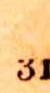31
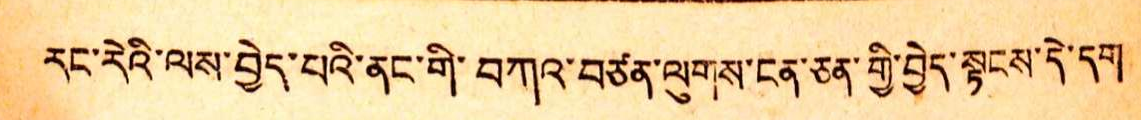རང་རེའི་ལས་བྱེད་པའི་ནང་གི་བཀའ་བཙན་ལུགས་ངན་ཅན་གྱི་བྱེད་སྟངས་དེ་དག
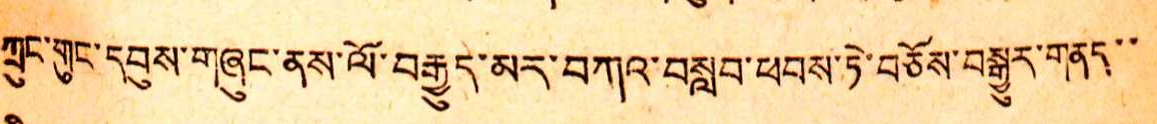ཀྲུང་གུང་དབུས་གཞུང་ནས་ལོ་བརྒྱུད་མར་བཀའ་བསླབ་ཕབས་ཏེ་བཅོས་བསྒྱུར་གནད་་
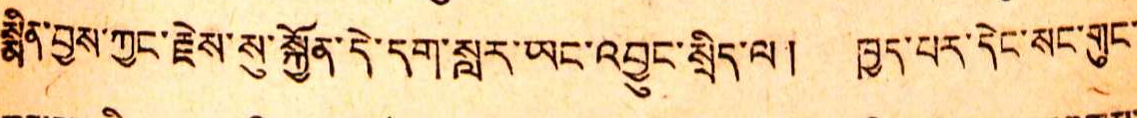སྨིན་བྱས་ཀྱང་རྗེས་སུ་སྐྱོན་དེ་དག་སླར་ཡང་འབྱུང་སྲིད་ལ། ཁྱད་པར་དེང་སང་གུང་
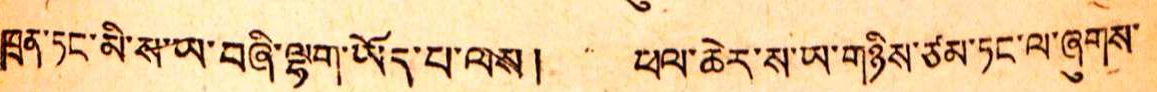ཁྲན་ཏང་མི་ས་ཡ་བཞི་ལྷག་ཡོད་པ་ལས། ཕལ་ཆེར་ས་ཡ་གཉིས་ཙམ་ཏང་ལ་ཞུགས་
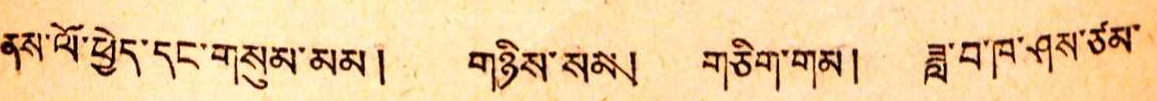ནས་ལོ་ཕྱེད་དང་གསུམ་མམ། གཉིས་སམ། གཅིག་གམ། ཟླ་བ་ཁ་ཤས་ཙམ་
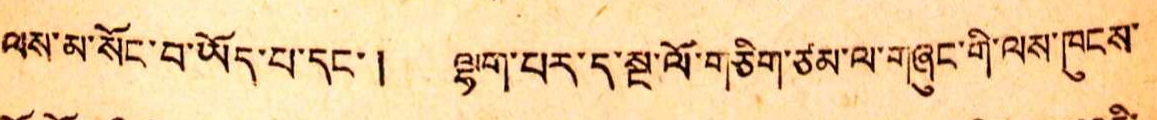ལས་མ་སོང་བ་ཡོད་པ་དང་། ལྷག་པར་ད་སྔ་ལོ་གཅིག་ཙམ་ལ་གཞུང་གི་ལས་ཁུངས་
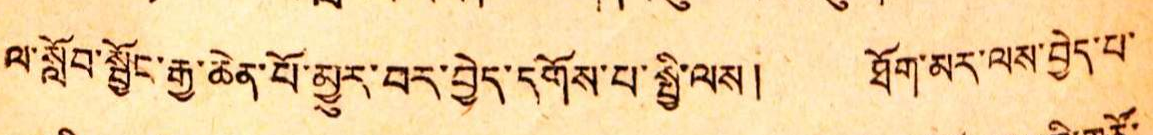ལ་སློབ་སྦྱོང་རྒྱ་ཆེན་པོ་མྱུར་བར་བྱེད་དགོས་པ་སྤྱི་ལས། ཐོག་མར་ལས་བྱེད་པ་
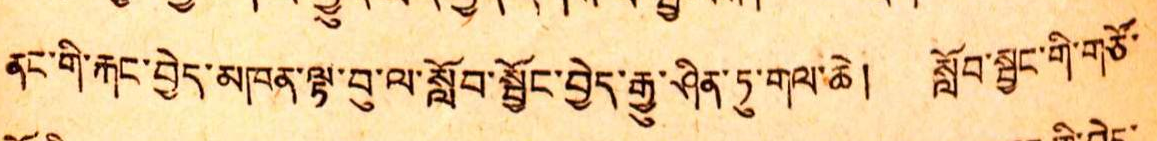ནང་གི་རྐང་བྱེད་མཁན་ལྟ་བུ་ལ་སློབ་སྦྱོང་བྱེད་རྒྱུ་ཤིན་ཏུ་གལ་ཆེ། སློབ་སྦྱང་གི་གཙོ་
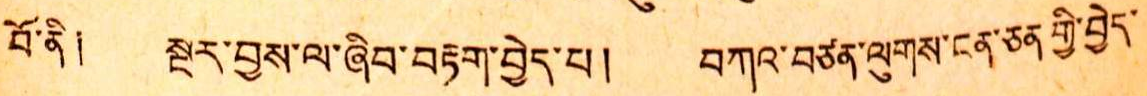བོ་ནི༏ སྔར་བྱས་ལ་ཞིབ་བརྟག་བྱེད་པ། བཀའ་བཙན་ལུགས་ངན་ཅན་གྱི་བྱེད་
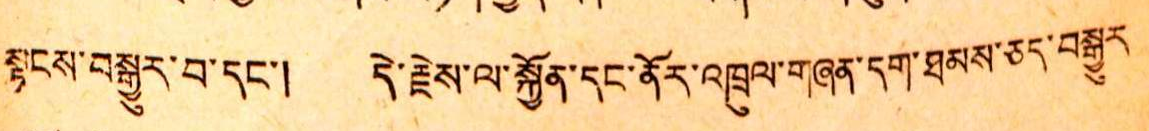སྟངས་བསྒྱུར་བ་དང་། དེ་རྗེས་ལ་སྐྱོན་དང་ནོར་འཁྲུལ་གཞན་དག་ཐམས་ཅད་བསྒྱུར་
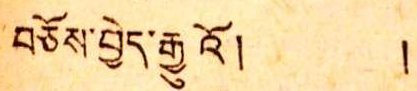བཅོས་བྱེད་རྒྱུའོ། །
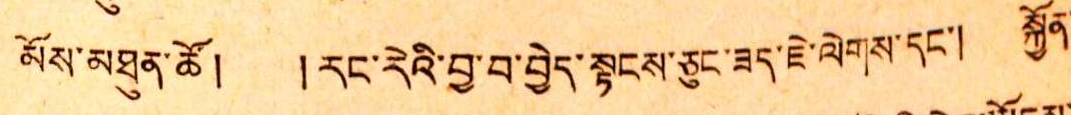མོས་མཐུན་ཚོ། །རང་རེའི་བྱ་བ་བྱེད་སྟངས་ཅུང་ཟད་ཇེ་ལེགས་དང་། སྐྱོན་
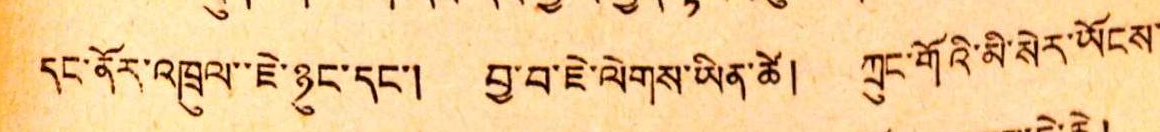དང་ནོར་འཁྲུལ་་ཇེ་ཉུང་དང་། བྱ་བ་ཇེ་ལེགས་ཡིན་ཚེ། ཀྲུང་གོའི་མི་སེར་ཡོངས་
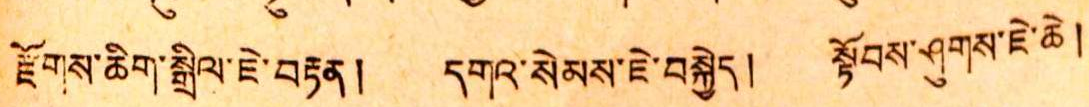རྫོགས་ཆིག་སྒྲིལ་ཇེ་བརྟན། དགའ་སེམས་ཇེ་བསྐྱེད། སྟོབས་ཤུགས་ཇེ་ཆེ།
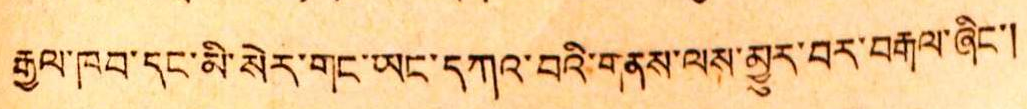རྒྱལ་ཁབ་དང་མི་སེར་གང་ཡང་དཀའ་བའི་གནས་ལས་མྱུར་བར་བརྒལ་ཞིང་།
